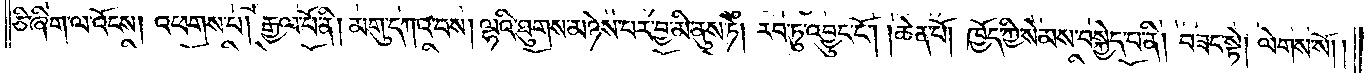ཅི་ཞིག་ལ་འོངས། འཕགས་པ། རྒྱལ་པོ་ནི། མགུ་དགའ་བས། ལྷའི་ཐུགས་མཉེས་པར་བྱ་མི་ནུས་ཏེ། རབ་ཏུ་འབྱུང་ངོ༌། །ཆེན་པོ། ཁྱོད་ཀྱི་སེམས་བསྐྱེད་པ་ནི། བཟང་སྟེ། ལེགས་སོ། །
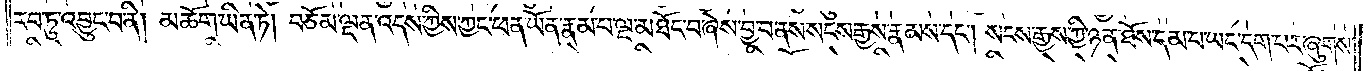རབ་ཏུ་འབྱུང་བ་ནི། མཆོག་ཡིན་ཏེ། བཅོམ་ལྡན་འདས་ཀྱིས་ཀྱང་ཕན་ཡོན་རྣམ་པ་ལྔ་མཐོང་བ་ཞེས་བྱ་བ་ནས་སངས་རྒྱས་རྣམས་དང༌། སངས་རྒྱས་ཀྱི་ཉན་ཐོས་དམ་པ་ཡང་དག་པར་ཞུགས་
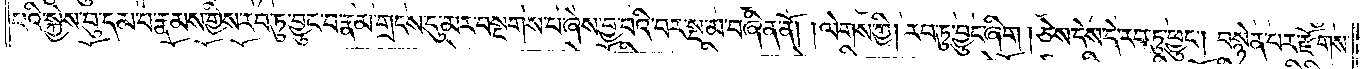པའི་སྐྱེས་བུ་དམ་པ་རྣམས་ཀྱིས་རབ་ཏུ་བྱུང་བ་རྣམ་གྲངས་དུ་མར་བསྔགས་པ་ཞེས་བྱ་བའི་བར་སྔ་མ་བཞིན་ནོ། །ལེགས་ཀྱི། རབ་ཏུ་བྱུང་ཞིག །ཅེས་དེས་དེ་རབ་ཏུ་ཕྱུང༌། བསྙེན་པར་རྫོགས་
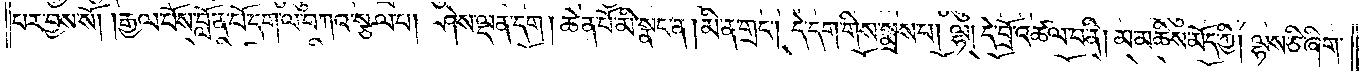པར་བྱས་སོ། །རྒྱལ་པོས་བློན་པོ་དག་ལ་བཀའ་སྩལ་པ། ཤེས་ལྡན་དག །ཆེན་པོ་མི་སྣང་ན་།མི་ན་གྲང༌། དེ་དག་གིས་སྨྲས་པ། ལྷ། དེ་བྲོ་འཚལ་བ་ནི། མ་མཆིས་མོད་ཀྱི། ལྷས་ཅི་ཞིག་
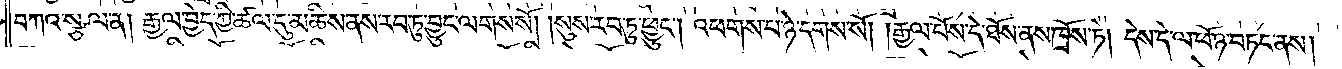བཀའ་སྩལ་ན། རྒྱལ་བྱེད་ཀྱི་ཚལ་དུ་མཆིས་ནས་རབ་ཏུ་བྱུང་ལགས་སོ། །སུས་རབ་ཏུ་ཕྱུང༌། འཕགས་པ་ཉེ་དགས་སོ། །རྒྱལ་པོས་དེ་ཐོས་ནས་ཁྲོས་ཏེ། དེས་དེ་ལ་ཕོ་ཉ་བཏང་ནས།
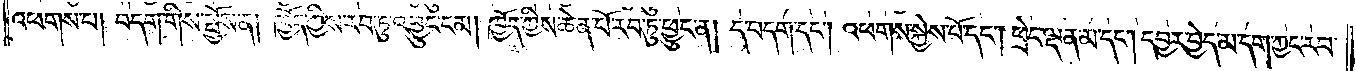འཕགས་པ། བདག་གིས་སྤྱོས་ན། ཁྱོད་ཀྱིས་རབ་ཏུ་འབྱུང་ངམ། ཁྱོད་ཀྱིས་ཆེན་པོ་རབ་ཏུ་ཕྱུང་ན། ད་བདག་དང༌། འཕགས་སྐྱེས་པོ་དང༌། ཕྲེང་ལྡན་མ་དང༌། དབྱར་བྱེད་མ་དག་ཀྱང་རབ་
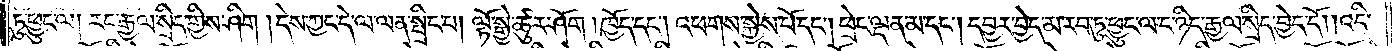ཏུ་ཕྱུང་ལ། རང་རྒྱལ་སྲིད་གྱིས་ཤིག །དེས་ཀྱང་དེ་ལ་ལན་སྤྲིང་པ། ལྟོ་སྒྱེ་ཚུར་ཤོག །ཁྱོད་དང༌། འཕགས་སྐྱེས་པོ་དང༌། ཕྲེང་ལྡན་མ་དང༌། དབྱར་བྱེད་མ་རབ་ཏུ་ཕྱུང་ལ་ང་ཉིད་རྒྱལ་སྲིད་བྱེད་དོ། །འདི་
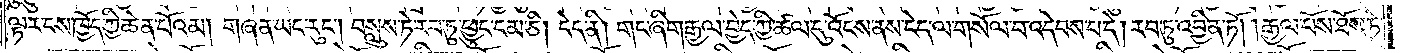ལྟར་ངས་ཁྱོད་ཀྱི་ཆེན་པོའམ། གཞན་ཡང་རུང༌། བསླུས་ཏེ་རབ་ཏུ་ཕྱུང་ངམ་ཅི། ངེད་ནི། གང་ཞིག་རྒྱལ་བྱེད་ཀྱི་ཚལ་དུ་འོངས་ནས་ངེད་ལ་གསོལ་པ་འདེབས་པ་དེ། རབ་ཏུ་འབྱིན་ཏོ། །རྒྱལ་པོས་ཐོས་ཏེ་
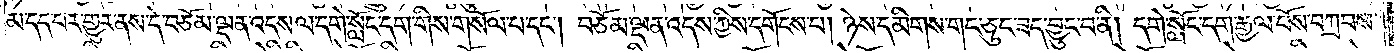མ་དད་པར་གྱུར་ནས་དེ་བཅོམ་ལྡན་འདས་ལ་དགེ་སློང་དག་གིས་གསོལ་པ་དང༌། བཅོམ་ལྡན་འདས་ཀྱིས་དགོངས་པ། ཉེས་དམིགས་གང་ཅུང་ཟད་བྱུང་བ་ནི། དགེ་སློང་དག་རྒྱལ་པོས་བཀྲབས་
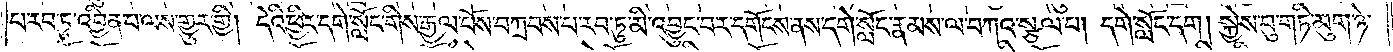པ་རབ་ཏུ་འབྱིན་པ་ལས་གྱུར་གྱི། དེའི་ཕྱིར་དགེ་སློང་གིས་རྒྱལ་པོས་བཀྲབས་པ་རབ་ཏུ་མི་འབྱུང་བར་དགོངས་ནས་དགེ་སློང་རྣམས་ལ་བཀའ་སྩལ་པ། དགེ་སློང་དག། སྐྱེས་བུ་གཏི་མུག་ཉེ་
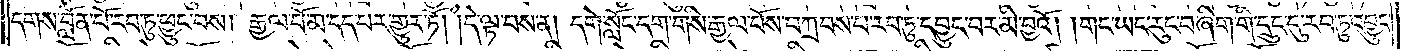དགས་བློན་པོ་རབ་ཏུ་ཕྱུང་བས། རྒྱལ་པོ་མ་དད་པར་གྱུར་ཏོ། །དེ་ལྟ་བས་ན། དགེ་སློང་དག་གིས་རྒྱལ་པོས་བཀྲབས་པ་རབ་ཏུ་དབྱུང་བར་མི་བྱའོ། །གང་ཡང་རུང་བ་ཞིག་གི་དྲུང་དུ་རབ་ཏུ་འབྱུང་
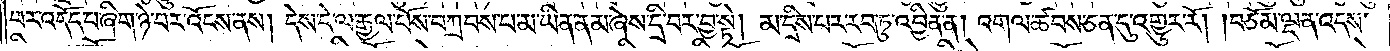བར་འདོད་པ་ཞིག་ཉེ་བར་འོངས་ནས། དེས་དེ་ལ་རྒྱལ་པོས་བཀྲབས་པ་མ་ཡིན་ནམ་ཞེས་དྲི་བར་བྱ་སྟེ། མ་དྲིས་པར་རབ་ཏུ་འབྱིན་ན། འགལ་ཚབས་ཅན་དུ་འགྱུར་རོ། །བཅོམ་ལྡན་འདས་
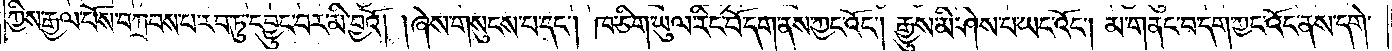ཀྱིས་རྒྱལ་པོས་བཀྲབས་པ་རབ་ཏུ་དབྱུང་བར་མི་བྱའོ། །ཞེས་གསུངས་པ་དང༌། ཁ་ཅིག་ཡུལ་རིང་པོ་དག་ནས་ཀྱང་འོང༌། རྒྱུས་མི་ཤེས་པ་ཡང་འོང༌། མ་གནང་བ་དག་ཀྱང་འོང་ནས་དགེ་
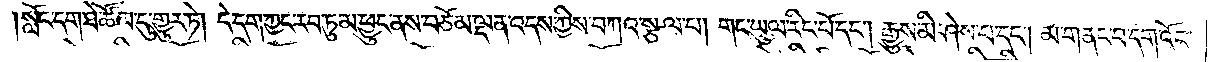སློང་དག་ཐེ་ཚོམ་དུ་གྱུར་ཏེ། དེ་དག་ཀྱང་རབ་ཏུ་མ་ཕྱུང་ནས་བཅོམ་ལྡན་འདས་ཀྱིས་བཀའ་སྩལ་པ། གང་ཡུལ་རིང་པོ་དང༌། རྒྱུས་མི་ཤེས་པ་དང༌། མ་གནང་བ་དག་འོང་
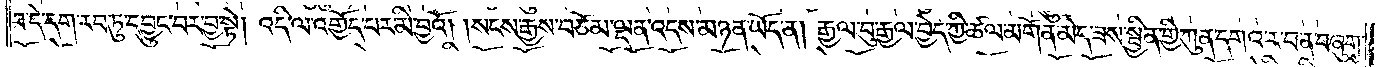བ་དེ་དག་རབ་ཏུ་དབྱུང་བར་བྱ་སྟེ། འདི་ལ་འགྱོད་པར་མི་བྱའོ། །སངས་རྒྱས་བཅོམ་ལྡན་འདས་མཉན་ཡོད་ན། རྒྱལ་བུ་རྒྱལ་བྱེད་ཀྱི་ཚལ་མགོན་མེད་ཟས་སྦྱིན་གྱི་ཀུན་དགའ་ར་བ་ན་བཞུགས་
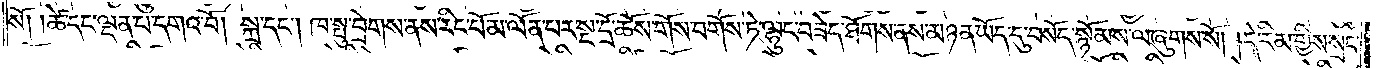སོ། །ཚེ་དང་ལྡན་པ་དགའ་བོ། སྐྲ་དང༌། ཁ་སྤུ་བྲེགས་ནས་རིང་པོ་མ་ལོན་པར་སྔ་དྲོ་ཆོས་གོས་བགོས་ཏེ་ལྷུང་བཟེད་ཐོགས་ནས་མཉན་ཡོད་དུ་བསོད་སྙོམས་ལ་ཞུགས་སོ། །དེ་རིམ་གྱིས་སྲང་
